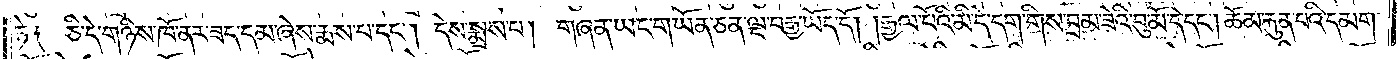ཏེ༑ ཅི་དེ་གཉིས་ཁོ་ནར་ཟད་དམ་ཞེས་རྨས་པ་དང༌། དེས་སྨྲས་པ། གཞན་ཡང་གཡོན་ཅན་ལྔ་བརྒྱ་ཡོད་དོ། །རྒྱལ་པོའི་མི་དེ་དག་གིས་བྲམ་ཟེའི་བུ་མོ་དེ་དང༌། ཆོམ་རྐུན་པའི་དམག་
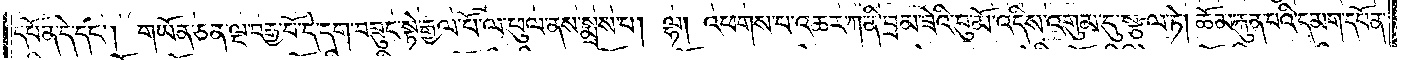དཔོན་དེ་དང༌། གཡོན་ཅན་ལྔ་བརྒྱ་པོ་དེ་དག་བཟུང་སྟེ་རྒྱལ་པོ་ལ་ཕུལ་ནས་སྨྲས་པ། ལྷ། འཕགས་པ་འཆར་ཀ་ནི་བྲམ་ཟེའི་བུ་མོ་འདིས་འགུམ་དུ་སྩལ་ཏེ། ཆོམ་རྐུན་པའི་དམག་དཔོན་
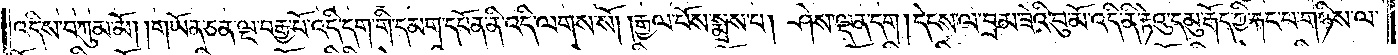འདིས་བཀུམ་མོ། །གཡོན་ཅན་ལྔ་བརྒྱ་པོ་འདི་དག་གི་དམག་དཔོན་ནི་འདི་ལགས་སོ། །རྒྱལ་པོས་སྨྲས་པ། ཤེས་ལྡན་དག །དེངས་ལ་བྲམ་ཟེའི་བུ་མོ་འདི་ནི་རྟེའུ་དམུ་རྒོད་ཀྱི་རྐང་པ་གཉིས་ལ་
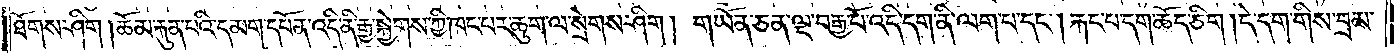ཐོགས་ཤིག །ཆོམ་རྐུན་པའི་དམག་དཔོན་འདི་ནི་རྒྱ་སྐྱེགས་ཀྱི་ཁང་པར་ཆུག་ལ་སྲེགས་ཤིག། གཡོན་ཅན་ལྔ་བརྒྱ་པོ་འདི་དག་ནི་ལག་པ་དང༌། རྐང་པ་དག་ཆོད་ཅིག །དེ་དག་གིས་བྲམ་
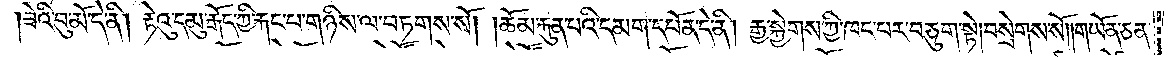ཟེའི་བུ་མོ་དེ་ནི། རྟེའུ་དམུ་རྒོད་ཀྱི་རྐང་པ་གཉིས་ལ་བཏགས་སོ། །ཆོམ་རྐུན་པའི་དམག་དཔོན་དེ་ནི། རྒྱ་སྐྱེགས་ཀྱི་ཁང་པར་བཅུག་སྟེ། བསྲེགས་སོ། །གཡོན་ཅན་
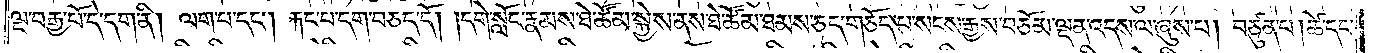ལྔ་བརྒྱ་པོ་དེ་དག་ནི། ལག་པ་དང༌། རྐང་པ་དག་བཅད་དོ། །དགེ་སློང་རྣམས་ཐེ་ཚོམ་སྐྱེས་ནས་ཐེ་ཚོམ་ཐམས་ཅད་གཅོད་པ་སངས་རྒྱས་བཅོམ་ལྡན་འདས་ལ་ཞུས་པ། བཙུན་པ། ཚེ་དང་
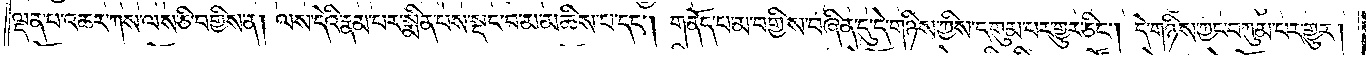ལྡན་པ་འཆར་ཀས་ལས་ཅི་བགྱིས་ན། ལས་དེའི་རྣམ་པར་སྨིན་པས་སྡང་བ་མ་མཆིས་པ་དང༌། གནོད་པ་མ་བགྱིས་བཞིན་དུ་དེ་གཉིས་ཀྱིས་དགུམ་པར་གྱུར་ཅིང༌། དེ་གཉིས་ཀྱང་བཀུམ་པར་གྱུར།
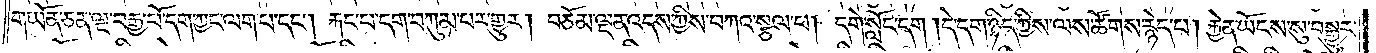གཡོན་ཅན་ལྔ་བརྒྱ་པོ་དག་ཀྱང་ལག་པ་དང༌། རྐང་པ་དག་བཀུམ་པར་གྱུར། བཅོམ་ལྡན་འདས་ཀྱིས་བཀའ་སྩལ་པ། དགེ་སློང་དག །དེ་དག་ཉིད་ཀྱིས་ལས་ཚོགས་རྙེད་པ། རྐྱེན་ཡོངས་སུ་བསྒྱུར་
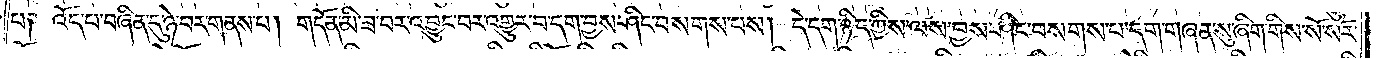པ༑ འོད་པ་བཞིན་དུ་ཉེ་བར་གནས་པ། གདོན་མི་ཟ་བར་འབྱུང་བར་འགྱུར་བ་དག་བྱས་ཤིང་བསགས་པས། དེ་དག་ཉིད་ཀྱིས་ལས་བྱས་ཤིང་བསགས་པ་དག་གཞན་སུ་ཞིག་གིས་སོ་སོར་
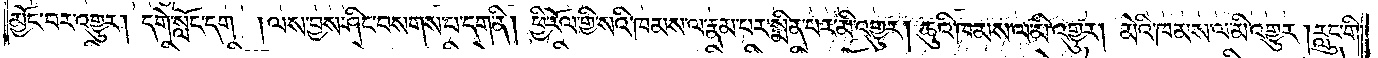མྱོང་བར་འགྱུར། དགེ་སློང་དག །ལས་བྱས་ཤིང་བསགས་པ་དག་ནི། ཕྱི་རོལ་གྱི་སའི་ཁམས་ལ་རྣམ་པར་སྨིན་པར་མི་འགྱུར། ཆུའི་ཁམས་ལ་མི་འགྱུར། མེའི་ཁམས་ལ་མི་འགྱུར་།རླུང་གི་
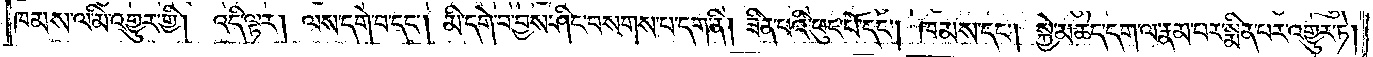ཁམས་ལ་མི་འགྱུར་གྱི། འདི་ལྟར། ལས་དགེ་བ་དང༌། མི་དགེ་བ་བྱས་ཤིང་བསགས་པ་དག་ནི། ཟིན་པའི་ཕུང་པོ་དང༌། ཁམས་དང༌། སྐྱེ་མཆེད་དག་ལ་རྣམ་པར་སྨིན་པར་འགྱུར་ཏེ།
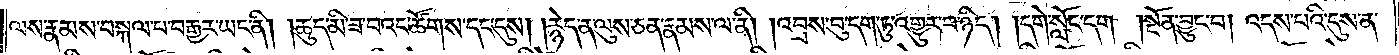ལས་རྣམས་བསྐལ་པ་བརྒྱར་ཡང་ནི། །ཆུད་མི་ཟ་བའང་ཚོགས་དང་དུས། །རྙེད་ན་ལུས་ཅན་རྣམས་ལ་ནི། །འབྲས་བུ་དག་ཏུ་འགྱུར་བ་ཉིད། །དགེ་སློང་དག །སྔོན་བྱུང་བ། འདས་པའི་དུས་ན་
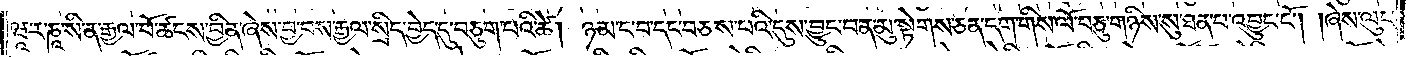ཝཱ་ར་ཎཱ་སི་ན་རྒྱལ་པོ་ཚངས་བྱིན་ཞེས་བྱ་བས་རྒྱལ་སྲིད་བྱེད་དུ་བཅུག་པའི་ཚེ། ཉམ་ང་བ་དང་བཅས་པའི་དུས་བྱུང་བ་ན་མུ་སྟེགས་ཅན་དག་གིས་ལོ་བཅུ་གཉིས་སུ་ཐན་པ་འབྱུང་ངོ༌། །ཞེས་ལུང་
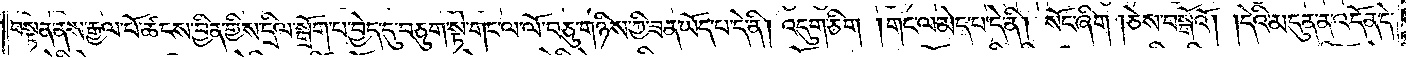བསྟན་ནས་རྒྱལ་པོ་ཚངས་བྱིན་གྱིས་དྲིལ་སྒྲོག་པ་བྱེད་དུ་བཅུག་སྟེ་གང་ལ་ལོ་བཅུ་གཉིས་ཀྱི་ཟན་ཡོད་པ་དེ་ནི། འདུག་ཅིག །གང་ལ་མེད་པ་དེ་ནི། སོང་ཞིག །ཅེས་བསྒོའོ། །དེའི་མདུན་ན་འདོན་དེ་
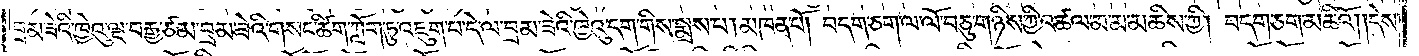བྲམ་ཟེའི་ཁྱེའུ་ལྔ་བརྒྱ་ཙམ་བྲམ་ཟེའི་གསང་ཚིག་ཀློག་ཏུ་འཇུག་པ་དེ་ལ་བྲམ་ཟེའི་ཁྱེའུ་དག་གིས་སྨྲས་པ། མཁན་པོ། བདག་ཅག་ལ་ལོ་བཅུ་གཉིས་ཀྱི་འཚལ་མ་མ་མཆིས་ཀྱི། བདག་ཅག་མཆིའོ། །དེས་
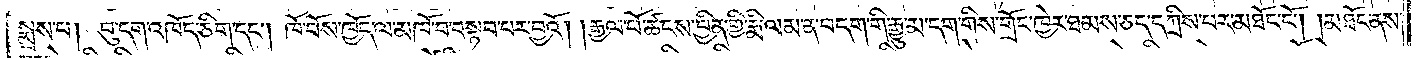སྨྲས་པ། བུ་དག་འཁོད་ཅིག་དང༌། ཁོ་བོས་ཁྱོད་ལ་མཁོ་བ་བསྟབ་པར་བྱའོ། །རྒྱལ་པོ་ཚངས་བྱིན་གྱི་རྨི་ལམ་ན་བདག་གི་རྒྱུ་མ་དག་གིས་གྲོང་ཁྱེར་ཐམས་ཅད་དཀྲིས་པར་མཐོང་ངོ༌། །མཐོང་ནས་
